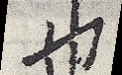也
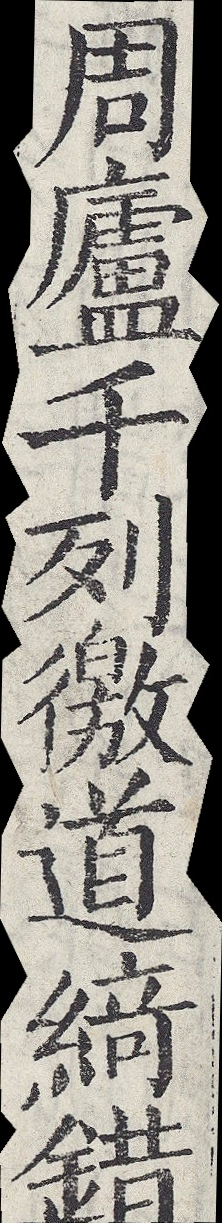周廬千列徼道綺錯
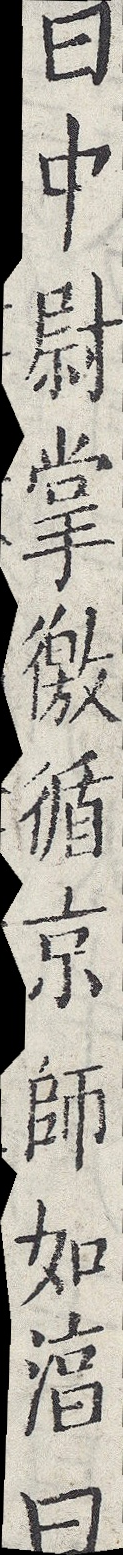曰中尉掌徼循京師如淳曰
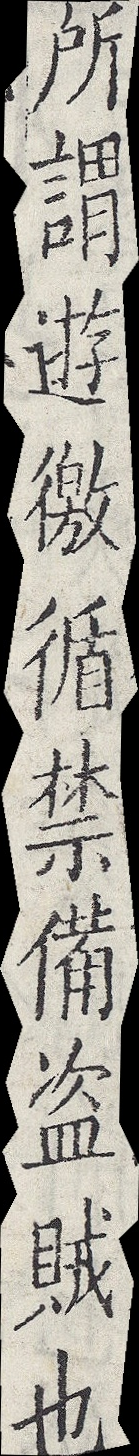所謂遊徼循禁備盜賊也
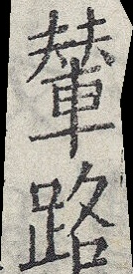輦路
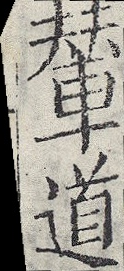輦道
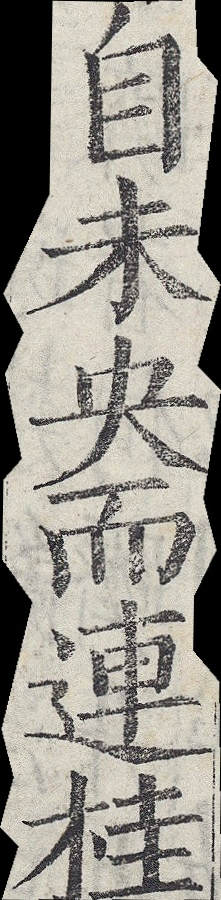自未央而連桂
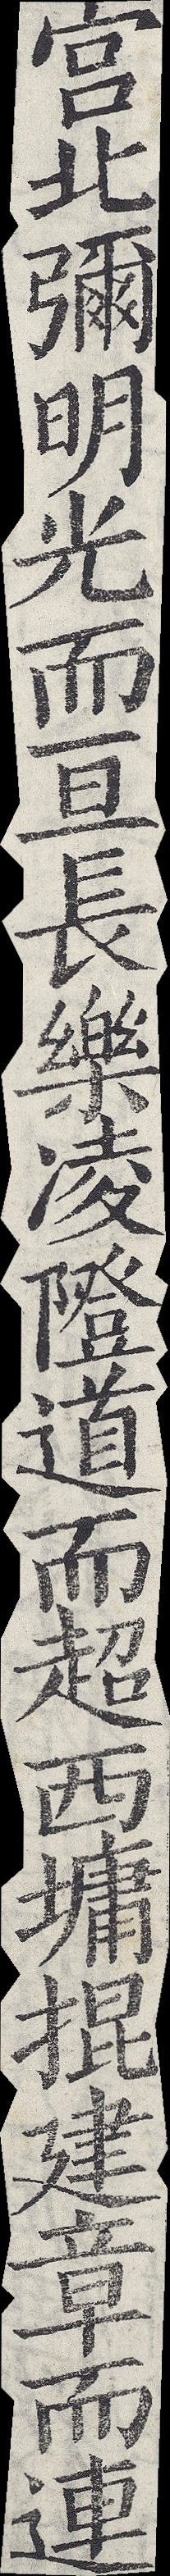宮北彌明光而亘長樂凌隥道而超西墉掍建章而連
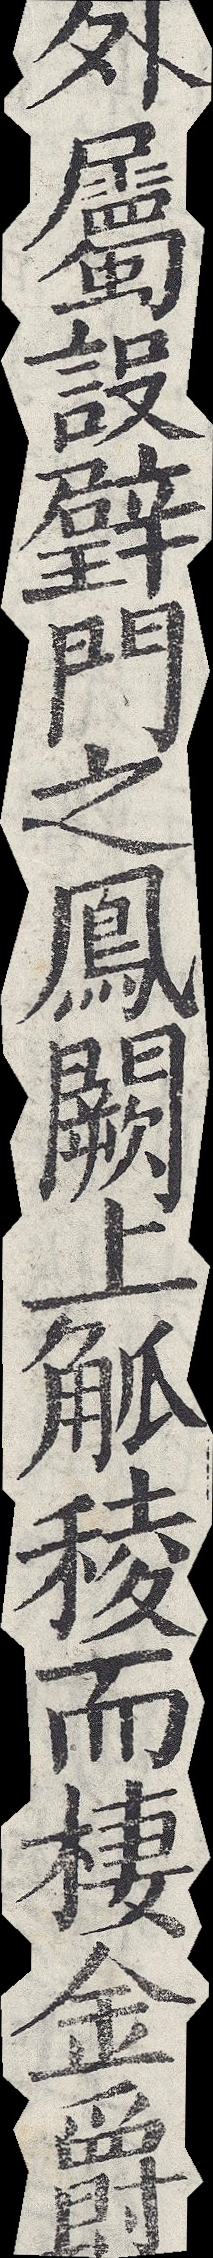外屬設璧門之鳳闕上觚稜而棲金爵
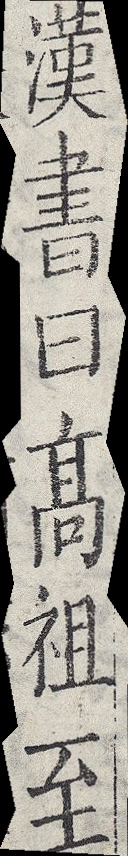漢書曰高祖至
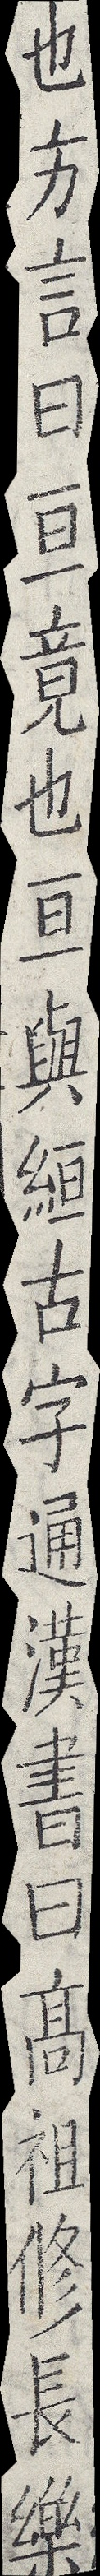也方言曰亘竟也亘與絙古字通漢書曰高祖修長樂
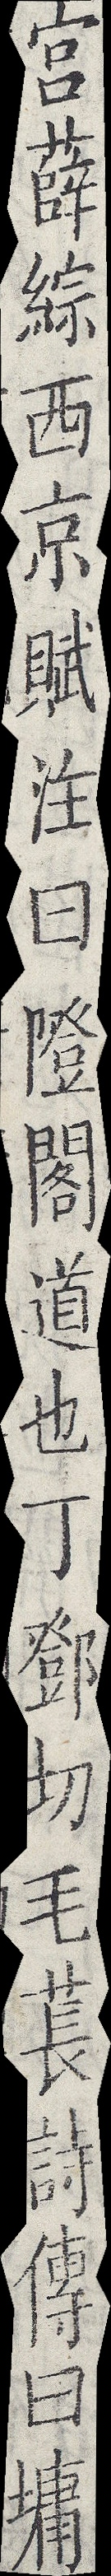宮薛綜西京賦注曰隥閣道也丁鄧切毛萇詩傳曰墉
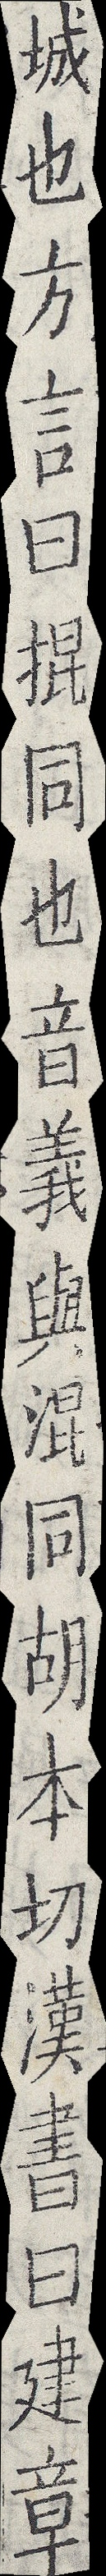城也方言曰掍同也音義與混同胡本切漢書曰建章
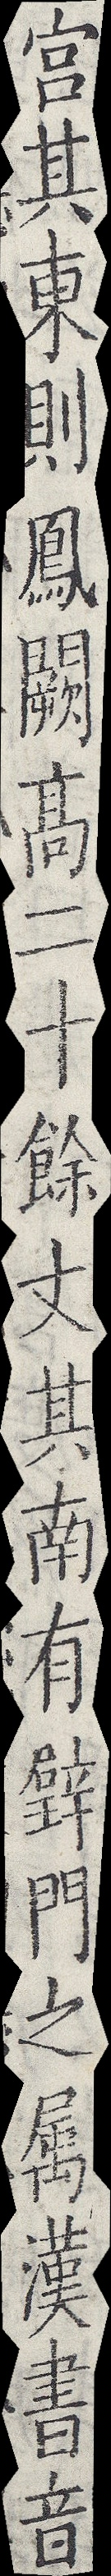宮其東則鳳闕高二十餘丈其南有璧門之屬漢書音
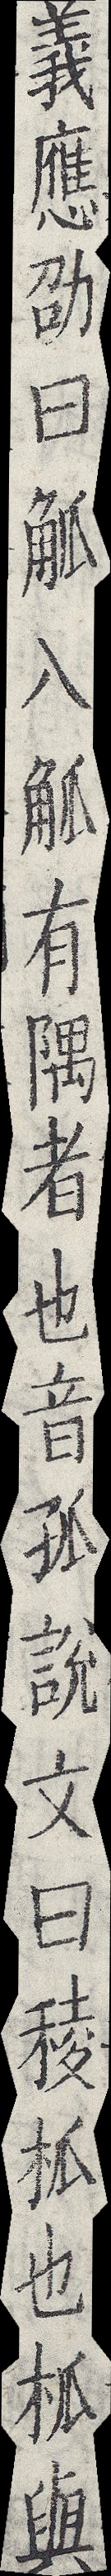義應劭曰觚八觚有隅者也音孤說文曰稜柧也柧與
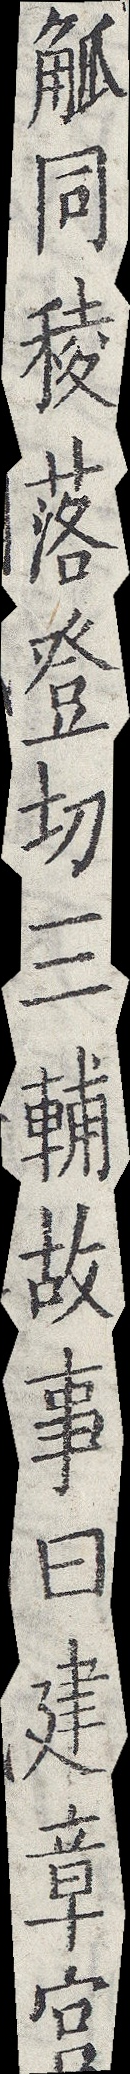觚同稜落登切三輔故事曰建章宮
